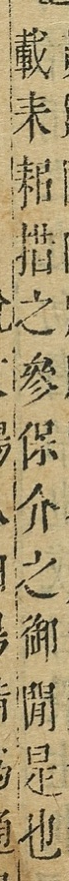載耒耜揩之參保介之御閒是也
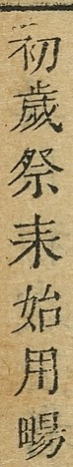初歲祭耒始用畼
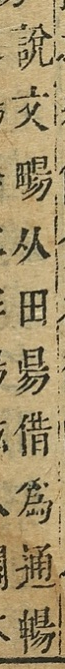說文畼从田昜借為通畼
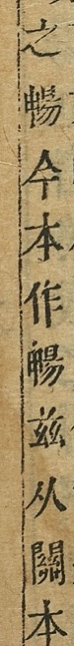之暢今本作暢兹从關本
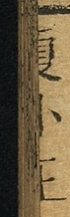夏小正
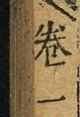卷一
